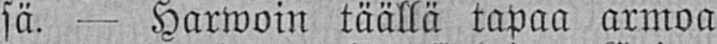sä. — Harwoin täällä tapaa armoa
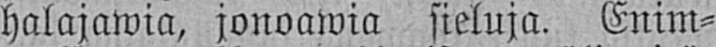halajawia, jonoawia sieluja. Enim-
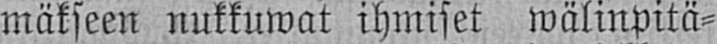mäkseen nukkuwat ihmiset wälinpitä-
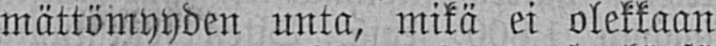mättömyyden unta, mikä ei olekkaan
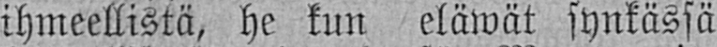ihmeellistä, he kun eläwät synkässä
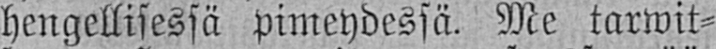hengellisessä pimeydessä. Me tarwit-
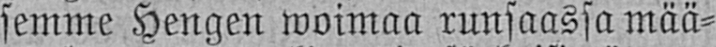semme Hengen woimaa runsaassa mää-
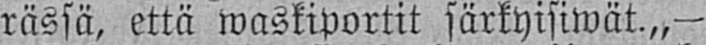rässä, että waskiportit särkyisiwät.„—
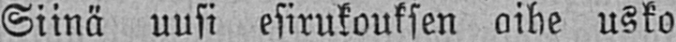Siinä uusi esirukouksen aihe usko
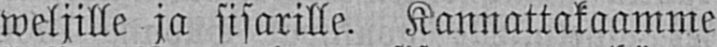weljille ja sisarille. Kannattakaamme
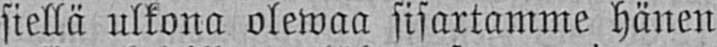siellä ulkona olewaa sisartamme hänen
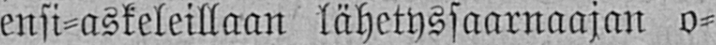ensi-askeleillaan lähetyssaarnaajan o-
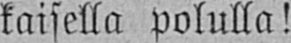kaisella polulla!
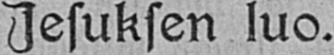Jesuksen luo.
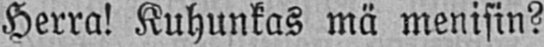Herra! Kuhunkas mä menisin?
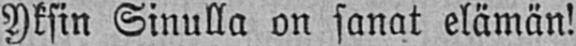Yksin Sinulla on sanat elämän!
